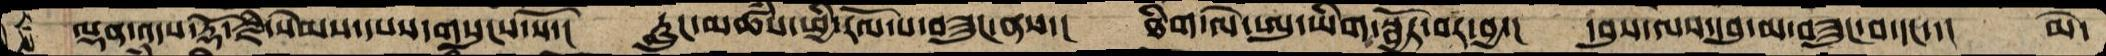ལྡན་འདས་རྡོ་རྗེ་སེམས་དཔས་གསུངས་སོ་།  རླུང་མཚཾས་ཕྱི་རོལ་པ་བཟུང་ནས་།  ཐིག་ལེ་ཨུ་ཡིག་སྦྱོར་བར་བྱ་།  དབུས་ལས་དབུ་མ་བཟུང་བ་དང་་།  མེ་
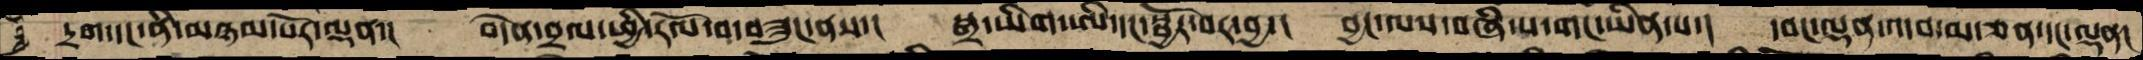དྲག་དང་ནི་མཉམ་པོར་ལྡན་།  བདེན་བྲལ་ཕྱི་རོལ་བ་བཟུང་ནས་། སྒྲ་ཡིག་ཨི་དང་སྦྱོར་བར་བྱ་། བྱང་ལས་བཞི་པ་གང་ཡིན་པ་།  དབང་ལྡན་འདབ་མ་ཅན་དང་ལྡན།
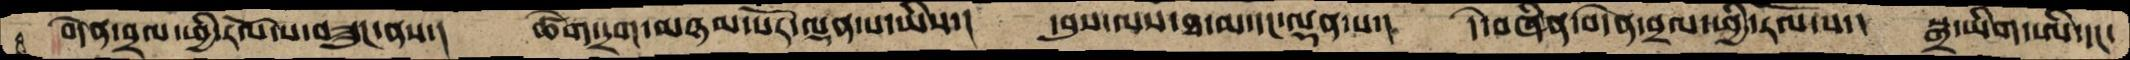བདེན་བྲལ་ཕྱི་རོལ་པ་བཟུང་ནས་།  ཚེག་དྲག་མཉམ་པོར་ལྡན་པ་ཡིས་།  དབུས་ལས་ཐ་མ་དང་ལྡན་པ་། དེ་བཞིན་བདེན་བྲལ་ཕྱི་རོལ་པ་། སྒྲ་ཡིག་ཨི་དང་
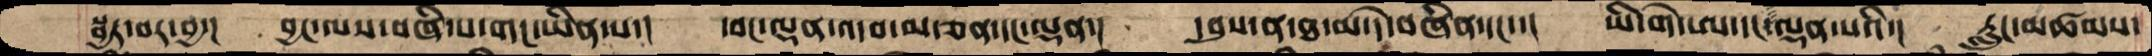སྦྱར་བར་བྱ་།  བྱང་ལས་བཞི་པ་གང་ཡིན་པ་།  དབང་ལྡན་འདབ་མ་ཅན་དང་ལྡན་།  དབུས་ན་ཐ་མ་དེ་བཞིན་དང་་།  ཡི་གེ་ཨ་དང་ལྡན་པའི་།  རླུང་མཚམས་
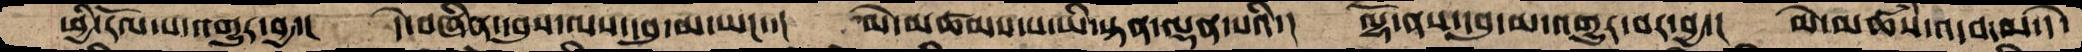ཕྱི་རོལ་པ་འགྱུར་བྱ་།  དེ་བཞིན་དབུས་ལས་དབུ་མ་ཡང་་།  མེ་མཚམས་པ་ཡི་སྟན་ལྡན་པའི་།  ལྷོ་ནས་དབུ་མ་འགྱུར་བར་བྱ་།  མེ་མཚཾས་འདབ་མ་དེ་
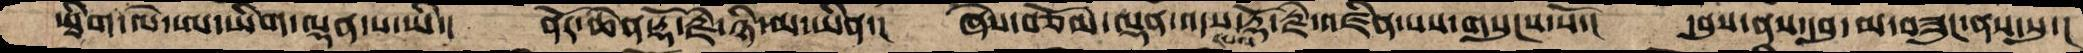་ཐིག་ལེ་ཨ་ཡིག་ལྡན་པ་ཡི་།  ནོར་ཆེན་རྡོ་རྗེ་ཉི་མ་ཡིན་། ཞེས་བཅོམ་ལྡན་འདས་དཔལ་རྡོ་རྗེ་འཛིན་པས་གསུངས་སོ་། དབུས་ནས་དབུ་མ་བཟུང་ནས་སུ་།
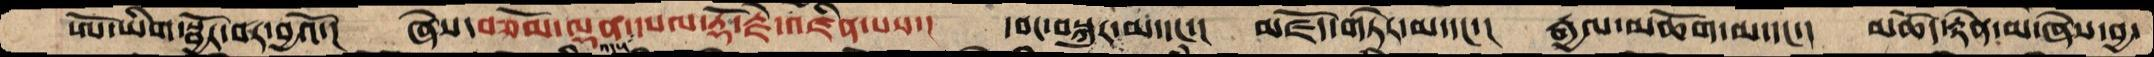ཨོ་ཡིག་སྦྱོར་བར་བྱའོ་།  ཞེས་བཅོམ་ལྡན་འདས་དཔལ་རྡོ་རྗེ་འཛིན་པས་།  དབང་བསྐུར་མ་དང་། མཛོད་གཏེར་མ་དང་། རྒྱལ་མཆོག་མ་དང་། མཆོད་རྟེན་མ་ཞེས་བྱ་
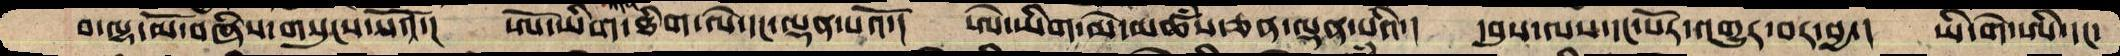བ་ལྷ་མོ་བཞིས་གསུངས་པའོ་།  ཨོ་ཡིག་ཐིག་ལེ་དང་ལྡན་པའོ་། ཨེ་ཡིག་མེ་མཚཾས་ཅན་ལྡན་པའི་། དབུས་ལས་དང་པོར་འགྱུར་བར་བྱ་། ཡི་གེ་ཨི་དང་
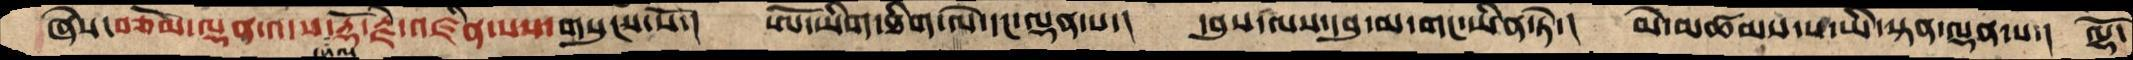ཞེས་བཅོམ་ལྡན་འདས་དཔལ་རྡོ་རྗེ་འཛིན་པས་གསུངས་སོ་། ཨོ་ཡིག་ཐིག་ལེ་དང་ལྡན་པ་། དབུས་ལས་དབུ་མ་གང་ཡིན་ཏེ་། མེ་མཚཾས་པ་ཡི་སྟན་ལྡན་པ་། ལྷོ་
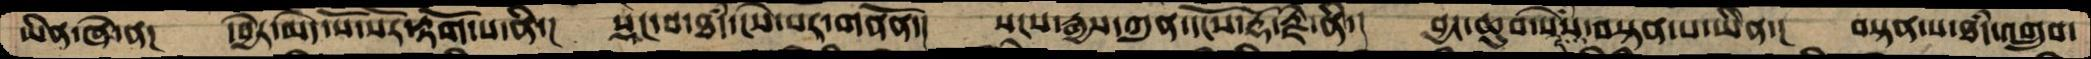ཡིན་ཞེ་ན། དབྱེར་མེད་སོ་སོར་རྟོག་པ་ནི་།  སྡང་བ་ཐཾད་ངེས་པར་གནོན་། སངས་རྒྱས་ཀུན་དངོས་རྡོ་རྗེ་ནི་། བྱང་ཆུབ་སེདཾས་བསྟན་པ་ཡིན་། བསྟན་པ་ཐཾད་འགྲུབ་
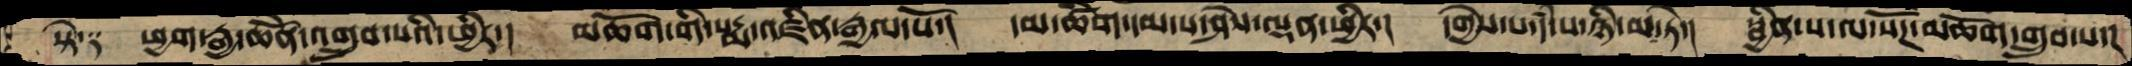སྟེ༑ ཕྱག་རྒྱ་ཆེནོ་འགྲུབ་པའི་ཕྱིར་། མཆོག་གི་པདྨ་འཛིན་རྒྱལ་པོ་། དམ་ཚིག་དམ་པ་ཤེས་ལྡན་ཕྱིར་། དགྱེས་པ་དཾ་པ་ཉི་མ་ཏེ་། སྦྱིན་པ་ལ་སོཌ་མཆོག་གྲུབ་པ་།
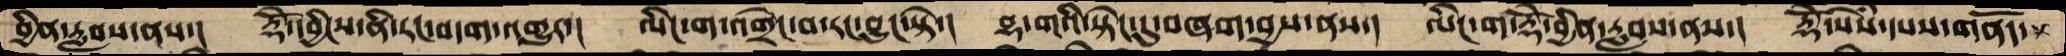བྱིན་རླབས་ནས་།  རྡོོེ་དབྱིངས་ནི་རང་བདག་འགྱུར་། ལིང་ག་འགྲེང་བ་རང་བྱུང་སྟེ་། བྷ་གའི་སྟེང་དུ་བཞག་བྱས་ནས་། ལིང་ག་རྡོེ་བྱིན་རླབས་ནས་། རྡོེ་སེཾས་དཔས་གནོད་
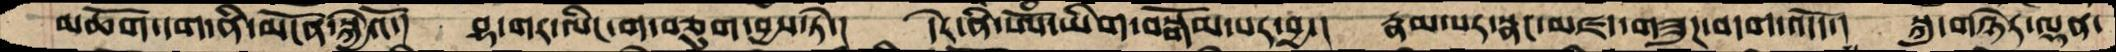མཆོག་དག་ནི་མངོན་སྐྱེའོ་།  བྷ་གར་ལིང་ག་བཅུག་བྱས་ཏེ་།  དེར་ནི་ཨོཾ་ཡིག་བསྒོམ་པར་བྱ་།  རྣམ་པར་སྣང་མཛད་གཟུཌ་བདག་འདོད་།  སྐུ་གཉེར་ལྡན་
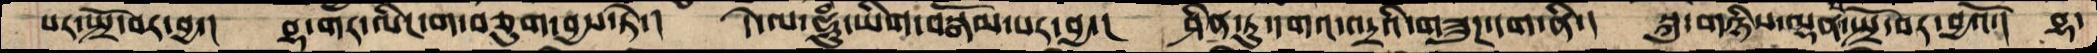པར་སྤྲོ་བར་བྱ་། བྷ་གར་ལིང་ག་བཅུག་བྱས་ཏེ་། དེ་ལ་ཧཱུྃ་ཡིག་བསྒོམ་པར་བྱ་། ཤིན་ཏུ་དགའ་འདྲའི་གཟུཌ་དག་ནི་།  སྐུ་གཉིས་ལྡན་པ་སྤྲོ་བར་བྱའོ་། བྷ་
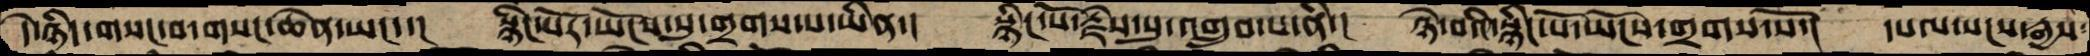དེ་ཉིད་གསང་བ་གསང་ཆེན་ཡང་་།  སྙིང་པོར་ཡོངས་སུ་གྲགས་པ་ཡིན་།  སྙིང་པོ་རྗེས་སུ་འགྲུབ་པ་ནི་།  ཉེ་བའི་སྙིང་པོ་ཡོངས་གྲགས་སོ་།  དཔལ་སངས་རྒྱས་
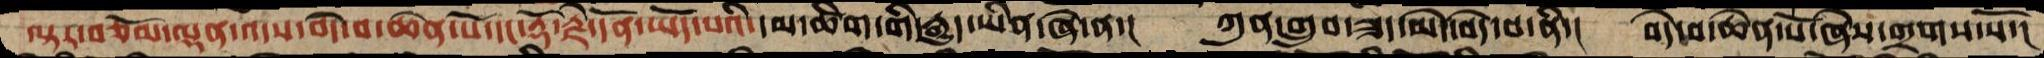ལྟར་བཅོམ་ལྡན་འདས་བདེ་བ་ཆེན་པོ་དང་རྡོ་རྗེ་དོན་ཡོད་པའི་དམ་ཚིག་གི་རྒྱུད་ཡིན་ཞེ་ན་།  ཀུན་གྲུབ་ཟད་མེད་བདེ་བ་ནི་།  བདེ་བ་ཆེན་པོ་ཞེས་གྲགས་སོ་།
